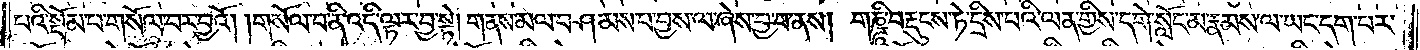པའི་སྡོམ་པ་གསོལ་པར་བྱའོ། །གསོལ་པ་ནི་འདི་ལྟར་བྱ་སྟེ། གནས་མལ་བཤམས་པ་བྱས་ལ་ཞེས་བྱ་བ་ནས། གཎྜཱི་བརྡུངས་ཏེ་དྲིས་པའི་ལན་གྱིས་དགེ་སློང་མ་རྣམས་ལ་ཡང་དག་པར་
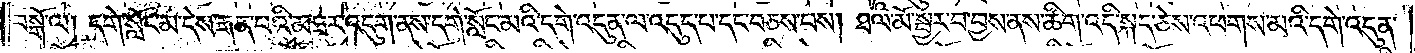བསྒོ་ལ། དགེ་སློང་མ་དེས་རྒན་པའི་མཐར་འདུག་ནས་དགེ་སློང་མའི་དགེ་འདུན་ལ་འདུད་པ་དང་བཅས་པས། ཐལ་མོ་སྦྱར་བ་བྱས་ནས་ཚིག་འདི་སྐད་ཅེས་འཕགས་མའི་དགེ་འདུན་
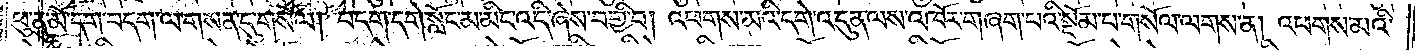ཕུ་ནུ་མོ་དག་བདག་ལ་གསན་དུ་གསོལ། བདག་དགེ་སློང་མ་མིང་འདི་ཞེས་བགྱི་བ། འཕགས་མའི་དགེ་འདུན་ལས་འཁོར་གཞག་པའི་སྡོམ་པ་གསོལ་ལགས་ན། འཕགས་མའི་
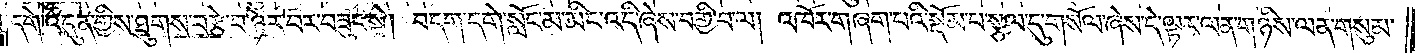དགེ་འདུན་གྱིས་ཐུགས་བརྩེ་བ་ཉེར་བར་བཟུང་སྟེ། བདག་དགེ་སློང་མ་མིང་འདི་ཞེས་བགྱི་བ་ལ། འཁོར་གཞག་པའི་སྡོམ་པ་སྩལ་དུ་གསོལ་ཞེས་དེ་ལྟར་ལན་གཉིས་ལན་གསུམ་
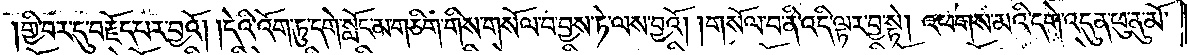།གྱི་བར་དུ་བརྗོད་པར་བྱའོ། །དེའི་འོག་ཏུ་དགེ་སློང་མ་གཅིག་གིས་གསོལ་བ་བྱས་ཏེ་ལས་བྱའོ། །གསོལ་བ་ནི་འདི་ལྟར་བྱ་སྟེ། འཕགས་མའི་དགེ་འདུན་ཕུ་ནུ་མོ་
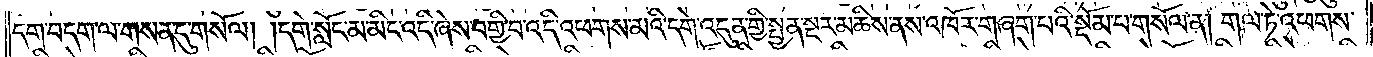དག་བདག་ལ་གསན་དུ་གསོལ། །དགེ་སློང་མ་མིང་འདི་ཞེས་བགྱི་བ་འདི་འཕགས་མའི་དགེ་འདུན་གྱི་སྤྱན་སྔར་མཆིས་ནས་འཁོར་གཞག་པའི་སྡོམ་པ་གསོལ་ན། གལ་ཏེ་འཕགས་
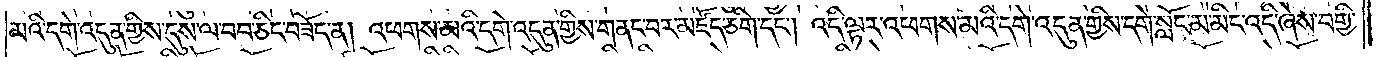མའི་དགེ་འདུན་གྱིས་དུས་ལ་བབ་ཅིང་བཟོད་ན། འཕགས་མའི་དགེ་འདུན་གྱིས་གནང་བར་མཛོད་ཅིག་དང༌། འདི་ལྟར་འཕགས་མའི་དགེ་འདུན་གྱིས་དགེ་སློང་མ་མིང་འདི་ཞེས་བགྱི་
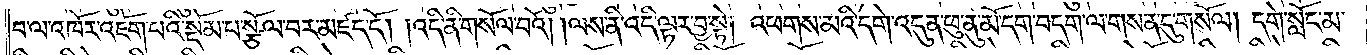བ་ལ་འཁོར་འཇོག་པའི་སྡོམ་པ་སྩོལ་བར་མཛད་དོ། །འདི་ནི་གསོལ་བའོ། །ལས་ནི་འདི་ལྟར་བྱ་སྟེ། འཕགས་མའི་དགེ་འདུན་ཕུ་ནུ་མོ་དག་བདག་ལ་གསན་དུ་གསོལ། དགེ་སློང་མ་
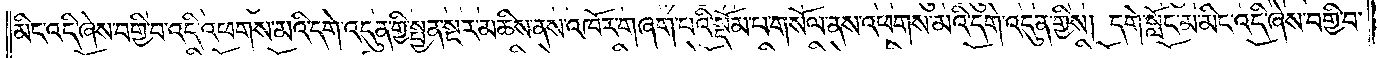མིང་འདི་ཞེས་བགྱི་བ་འདི་འཕགས་མའི་དགེ་འདུན་གྱི་སྤྱན་སྔར་མཆིས་ནས་འཁོར་གཞག་པའི་སྡོམ་པ་གསོལ་ནས་འཕགས་མའི་དགེ་འདུན་གྱིས། དགེ་སློང་མ་མིང་འདི་ཞེས་བགྱི་བ་
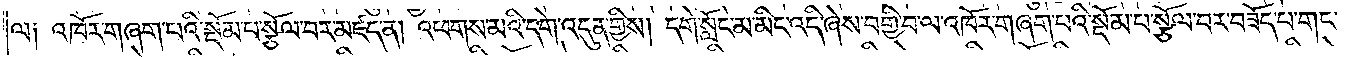ལ༑ འཁོར་གཞག་པའི་སྡོམ་པ་སྩོལ་བར་མཛད་ན། འཕགས་མའི་དགེ་འདུན་གྱིས། དགེ་སློང་མ་མིང་འདི་ཞེས་བགྱི་བ་ལ་འཁོར་གཞག་པའི་སྡོམ་པ་སྩོལ་པར་བཟོད་པ་གང་
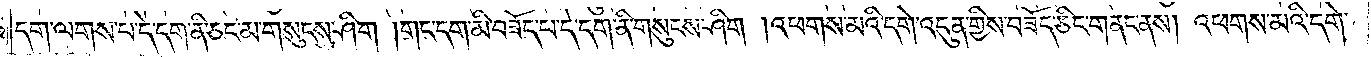དག་ལགས་པ་དེ་དག་ནི་ཅང་མ་གསུངས་ཤིག །གང་དག་མི་བཟོད་པ་དེ་དག་ནི་གསུངས་ཤིག །འཕགས་མའི་དགེ་འདུན་གྱིས་བཟོད་ཅིང་གནང་ནས། འཕགས་མའི་དགེ་
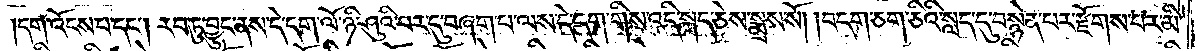།དག་འོངས་པ་དང༌། རབ་ཏུ་བྱུང་ནས་དེ་དག་ལོ་ཉི་ཤུའི་པར་དུ་བཞག་པ་ལས་དེ་དག་གིས་འདི་སྐད་ཅེས་སྨྲས་སོ། །བདག་ཅག་ཅིའི་སླད་དུ་བསྙེན་པར་རྫོགས་པར་མི་
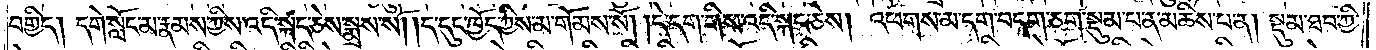བགྱིད། དགེ་སློང་མ་རྣམས་ཀྱིས་འདི་སྐད་ཅེས་སྨྲས་སོ། །ད་དུང་ཁྱོད་ཀྱིས་མ་གོམས་སོ། །དེ་དག་གིས་འདི་སྐད་ཅེས། འཕགས་མ་དག་བདག་ཅག་སྡུམ་པ་ན་མཆིས་པ་ན། སྡུམ་ཐབ་ཀྱི་
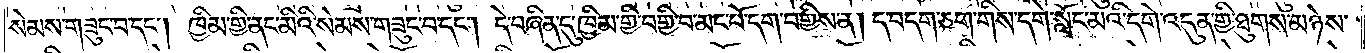སེམས་གཟུང་བ་དང༌། ཁྱིམ་གྱི་ནང་མིའི་སེམས་གཟུང་བ་དང༌། དེ་བཞིན་དུ་ཁྱིམ་གྱི་བགྱི་བ་མང་པོ་དག་བགྱིས་ན། ད་བདག་ཅག་གིས་དགེ་སློང་མའི་དགེ་འདུན་གྱི་ཐུགས་མཉེས་
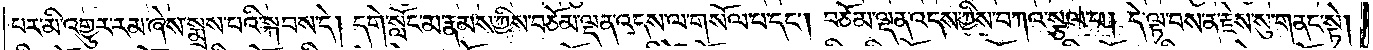པར་མི་འགྱུར་རམ་ཞེས་སྨྲས་པའི་སྐབས་དེ། དགེ་སློང་མ་རྣམས་ཀྱིས་བཅོམ་ལྡན་འདས་ལ་གསོལ་པ་དང༌། བཅོམ་ལྡན་འདས་ཀྱིས་བཀའ་སྩལ་པ། དེ་ལྟ་བས་ན་རྗེས་སུ་གནང་སྟེ།
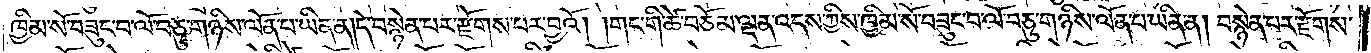ཁྱིམ་སོ་བཟུང་བ་ལོ་བཅུ་གཉིས་ལོན་པ་ཡིན་ན། དེ་བསྙེན་པར་རྫོགས་པར་བྱའོ། །གང་གི་ཚེ་བཅོམ་ལྡན་འདས་ཀྱིས་ཁྱིམ་སོ་བཟུང་བ་ལོ་བཅུ་གཉིས་ལོན་པ་ཡིན་ན། བསྙེན་པར་རྫོགས་
